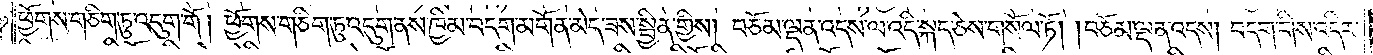ཕྱོགས་གཅིག་ཏུ་འདུག་གོ །ཕྱོགས་གཅིག་ཏུ་འདུག་ནས་ཁྱིམ་བདག་མགོན་མེད་ཟས་སྦྱིན་གྱིས། བཅོམ་ལྡན་འདས་ལ་འདི་སྐད་ཅེས་གསོལ་ཏོ། །བཅོམ་ལྡན་འདས། བདག་གིས་འདིར་
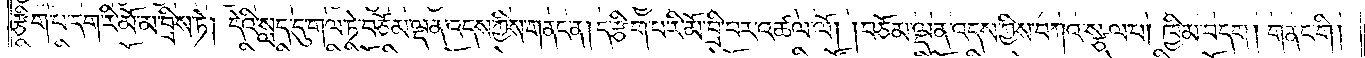རྩིག་པ་དག་རི་མོ་མ་བྲིས་ཏེ། དེའི་སླད་དུ་གལ་ཏེ་བཅོམ་ལྡན་འདས་ཀྱིས་གནང་ན། ད་རྩིག་པ་རི་མོ་བྲི་བར་འཚལ་ལོ། །བཅོམ་ལྡན་འདས་ཀྱིས་བཀའ་སྩལ་པ། ཁྱིམ་བདག །གནང་གི།
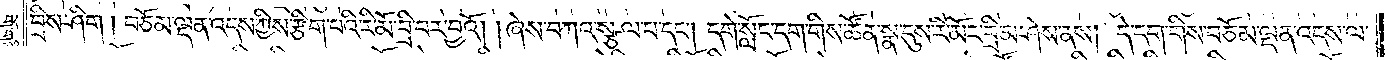བྲིས་ཤིག །བཅོམ་ལྡན་འདས་ཀྱིས་རྩིག་པའི་རི་མོ་བྲི་བར་བྱའོ། །ཞེས་བཀའ་སྩལ་པ་དང༌། དགེ་སློང་དག་གིས་ཚོན་སྣ་དུས་རི་མོར་བྲི་མ་ཤེས་ནས། དེ་དག་གིས་བཅོམ་ལྡན་འདས་ལ་
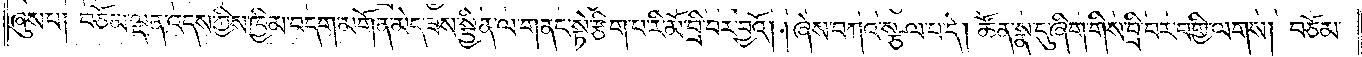ཞུས་པ། བཅོམ་ལྡན་འདས་ཀྱིས་ཁྱིམ་བདག་མགོན་མེད་ཟས་སྦྱིན་ལ་གནང་སྟེ་རྩིག་པ་རི་མོ་བྲི་བར་བྱའོ། །ཞེས་བཀའ་སྩལ་པ་དེ། ཚོན་སྣ་དུ་ཞིག་གིས་བྲི་བར་བགྱི་ལགས། བཅོམ་
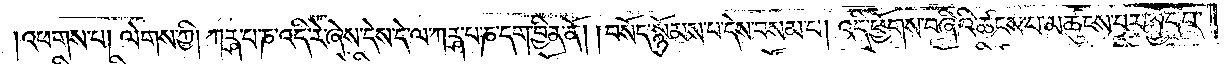འཕགས་པ། ལེགས་ཀྱི། ཀཪྴ་པ་ཎ་འདི་རེ་ཞེས་དེས་དེ་ལ་ཀཪྴ་པ་ཎ་དག་བྱིན་ནོ། །བསོད་སྙོམས་པ་དེས་བསམ་པ། འདི་ཕྱོགས་བཞིའི་ཚངས་པ་མཚུངས་པར་སྤྱོད་པ་
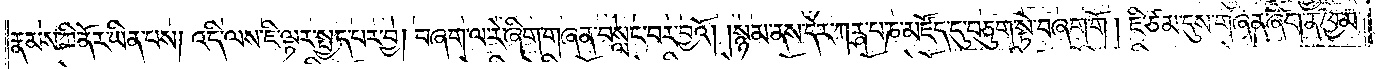རྣམས་ཀྱི་ནོར་ཡིན་པས། འདི་ལས་ཇི་ལྟར་སྤྱད་པར་བྱ། བཞག་ལ་རེ་ཞིག་གཞན་བསླང་བར་བྱའོ། །སྙམ་ནས་དེར་ཀཪྴ་པ་ཎ་མཛོད་དུ་བཅུག་སྟེ་བཞག་གོ །ཇི་ཙམ་དུས་གཞན་ཞིག་ན་ཁྱིམ་
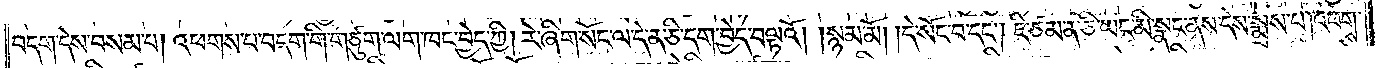བདག་དེས་བསམ་པ། འཕགས་པ་བདག་གི་གཙུག་ལག་ཁང་བྱེད་ཀྱི། རེ་ཞིག་སོང་ལ་དེ་ན་ཅི་དག་བྱེད་བལྟའོ། །སྙམ་མོ། །དེ་སོང་བ་དང༌། ཇི་ཙམ་ན་ཅི་ཡང་མི་སྣང་ནས་དེས་སྨྲས་པ། འཕགས་
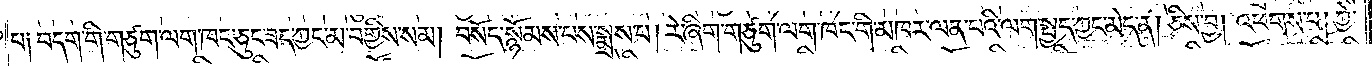པ༑ བདག་གི་གཙུག་ལག་ཁང་ཅུང་ཟད་ཀྱང་མ་བགྱིས་སམ། བསོད་སྙོམས་པས་སྨྲས་པ། རེ་ཞིག་གཙུག་ལག་ཁང་གི་མཁར་ལན་པའི་ལག་སྤྱད་ཀྱང་མེད་ན། ཅིས་བྱ། འཕགས་པ། ཀྱེ་
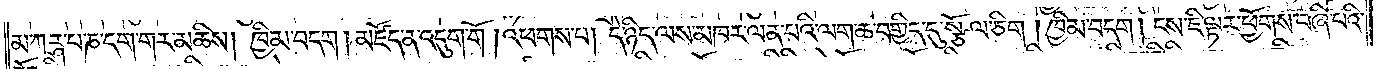མ་ཀཪྴ་པ་ཎ་དག་གར་མཆིས། ཁྱིམ་བདག། མཛོད་ན་འདུག་གོ །འཕགས་པ། དེ་ཉིད་ལས་མཁར་ལན་པའི་ལག་ཆ་བགྱིད་དུ་སྩོལ་ཅག །ཁྱིམ་བདག །ངས་ཇི་ལྟར་ཕྱོགས་བཞི་པའི་
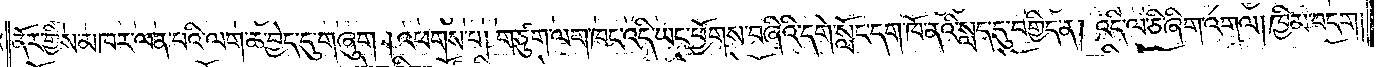ནོར་གྱིས་མཁར་ལན་པའི་ལག་ཆ་བྱེད་དུ་གཞུག །འཕགས་པ། གཙུག་ལག་ཁང་འདི་ཡང་ཕྱོགས་བཞིའི་དགེ་སློང་དག་ཁོ་ནའི་སླད་དུ་བགྱིད་ན། འདི་ལ་ཅི་ཞིག་འགལ། ཁྱིམ་བདག་
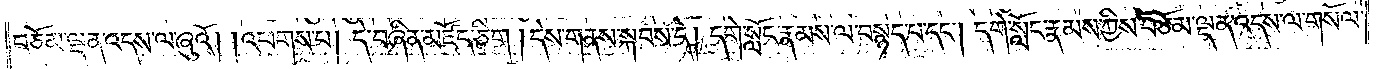བཅོམ་ལྡན་འདས་ལ་ཞུའོ། །འཕགས་པ། དེ་བཞིན་མཛོད་ཅིག །དེས་གནས་སྐབས་དེ། དགེ་སློང་རྣམས་ལ་བསྙད་པ་དང༌། དགེ་སློང་རྣམས་ཀྱིས་བཅོམ་ལྡན་འདས་གསོལ་
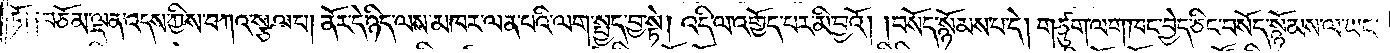ཏོ། །བཅོམ་ལྡན་འདས་ཀྱིས་བཀའ་སྩལ་པ། ནོར་དེ་ཉིད་ལས་མཁར་ལན་པའི་ལག་སྤྱད་བྱ་སྟེ། འདི་ལ་འགྱོད་པར་མི་བྱའོ། །བསོད་སྙོམས་པ་དེ། གཙུག་ལག་ཁང་བྱེད་ཅིང་བསོད་སྙོམས་ལ་ཡང་
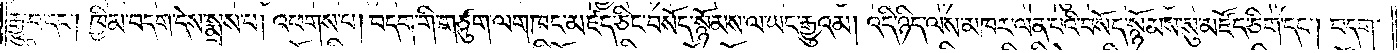རྒྱུ་བ་དང༌། ཁྱིམ་བདག་དེས་སྨྲས་པ། འཕགས་པ། བདག་གི་གཙུག་ལག་ཁང་མཛད་ཅིང་བསོད་སྙོམས་ལ་ཡང་རྒྱུའམ། འདི་ཉིད་ལས་མཁར་ལན་པའི་བསོད་སྙོམས་སུ་མཛོད་ཅིག་དང༌། བདག་
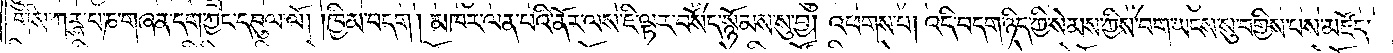གིས་ཀཪྴ་པ་ཎ་གཞན་དག་ཀྱང་དབུལ་ལོ། །ཁྱིམ་བདག། མཁར་ལན་པའི་ནོར་ལས་ཇི་ལྟར་བསོད་སྙོམས་སུ་བྱ། འཕགས་པ། འདི་བདག་ཉིད་ཀྱི་སེམས་ཀྱིས་བག་ཡངས་སུ་བགྱིས་པས་མཛོད་
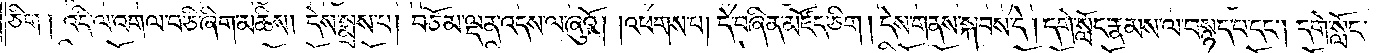ཅིག །འདི་ལ་འགལ་བ་ཅི་ཞིག་མཆིས། དེས་སྨྲས་པ། བཅོམ་ལྡན་འདས་ལ་ཞུའོ། །འཕགས་པ། དེ་བཞིན་མཛོད་ཅིག །དེས་གནས་སྐབས་དེ། དགེ་སློང་རྣམས་ལ་བསྙད་པ་དང༌། དགེ་སློང་
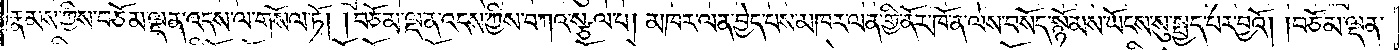རྣམས་ཀྱིས་བཅོམ་ལྡན་འདས་ལ་གསོལ་ཏོ། །བཅོམ་ལྡན་འདས་ཀྱིས་བཀའ་སྩལ་པ། མཁར་ལན་བྱེད་པས་མཁར་ལན་གྱི་ནོར་ཁོ་ན་ལས་བསོད་སྙོམས་ཡོངས་སུ་སྤྱད་པར་བྱའོ། །བཅོམ་ལྡན་
